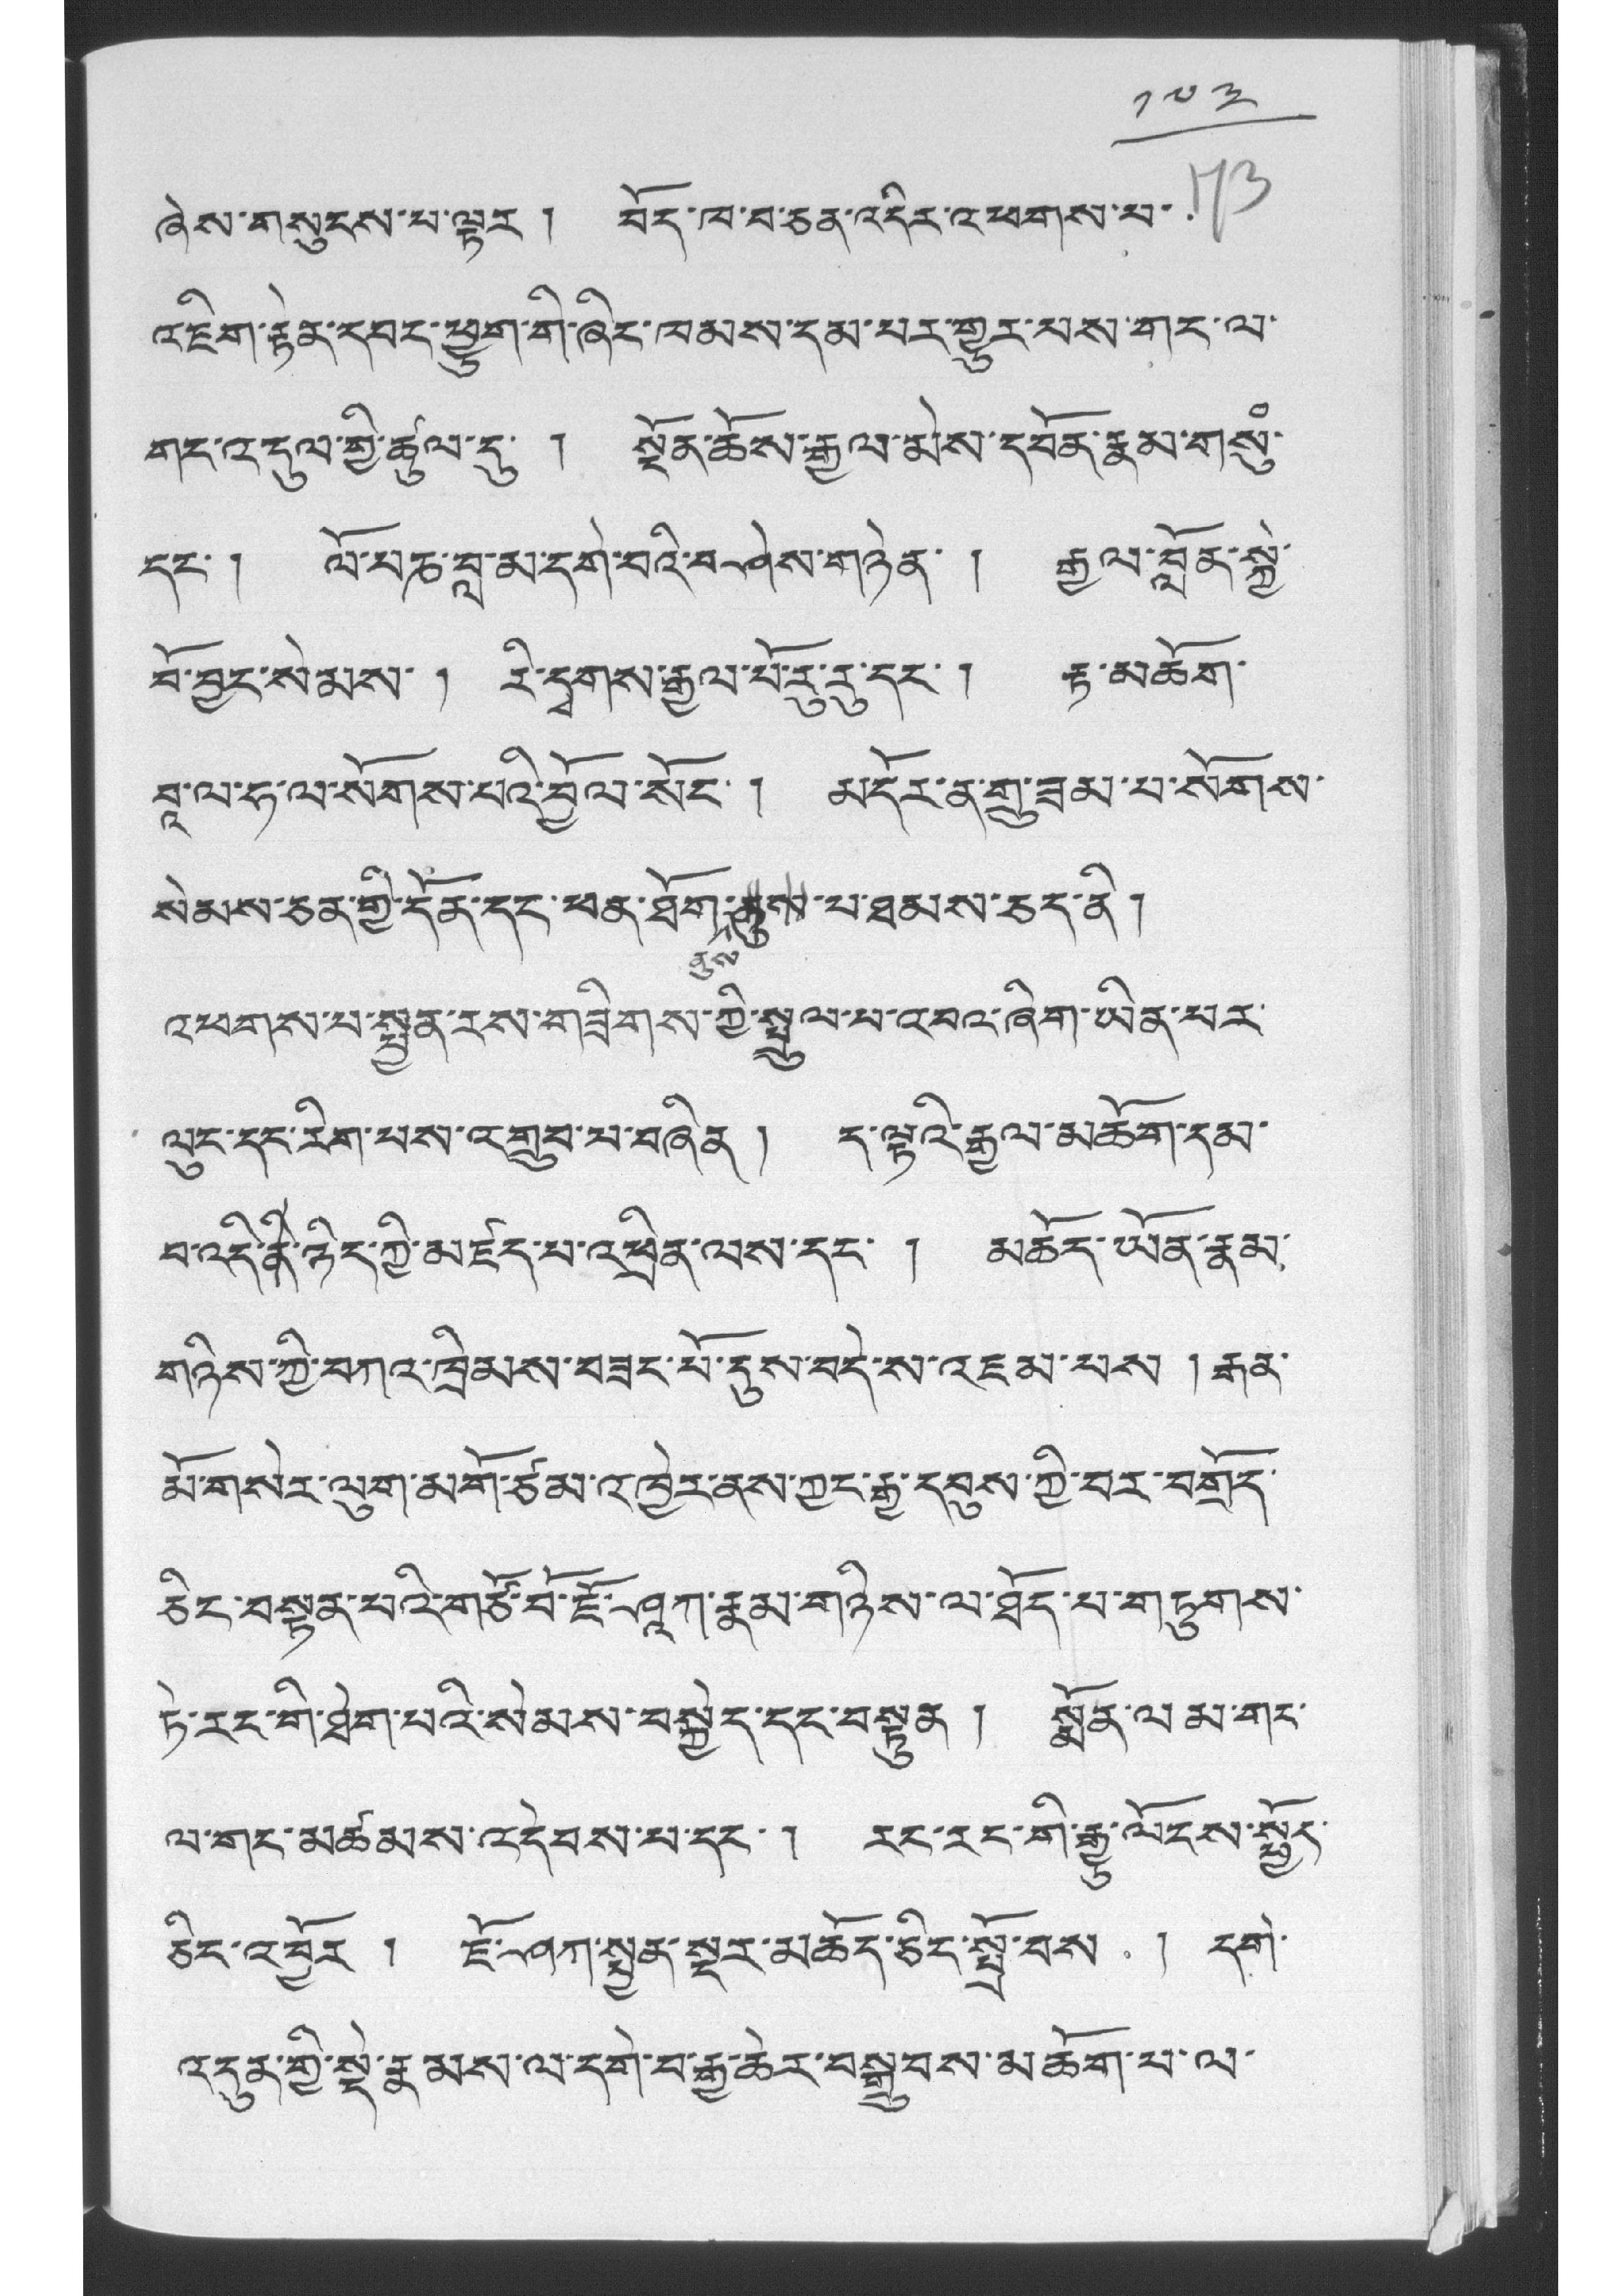༡༧༣
ཞེས་གསུངས་བ་ལྟར ། བོད་ཁ་བ་ཅན་འདིར་འཕགས་པ་
འཇིག་རྟེན་དབང་ཕྱུག་ག་ཞིེང་ཁམས་དམ་པར་གྱུར་པས་གང་ལ་
གང་འདུལ་གྱི་ཚུལ་དུ་ ། སྔོན་ཆོས་རྒྱལ་མེས་དབོན་རྣམ་གསུཾ་
དང་། ལོ་པཎ་བླ་མ་དགེ་བའི་བ་ཤེས་གཉེན་ ། རྒྱལ་བློན་སྐྱེ་
བོ་བྱང་སེམས་ ། རི་དྭགས་རྒྱལ་པོ་རུ་རུ་དང་། རྟ་མཆོག་
བཱ་ལ་ཧ་ལ་སོགས་པའི་བྱོལ་སོང་། མདོར་ན་གྲུ་ཟམ་པ་སོགས་
སེམས་ཅན་གྱི་དོན་དང་ཕན་ཐོག་ནུསནུས་པ་ཐམས་ཅར་ནི།
འཕགས་པ་སྤྱན་རས་གཟིགས་ཀྱི་སྤྲུལ་པ་འབའ་ཞིག་ཡིན་པར་
ལུང་དང་རིག་པས་འགྲུབ་པ་བཞིན། ད་ལྟའི་རྒྱལ་མཆོག་དམ་
བ་འདི་ནི་ཉིད་གྱི་མཛད་པ་འཕྲིན་ལས་དང་ ། མཆོར་ཡོན་རྣམ་
གཉིས་ཀྱི་བཀའ་ཁྲིམས་བཟང་པོ་དུས་བདེ་ས་འཇམ་པས ། རྒན་
མོ་གསར་ལུག་མགོ་ཙམ་འཁྱེར་ནས་ཀྱང་རྒྱ་དབུས་ཀྱི་བར་བགྲོད་
ཅིང་བསྟན་པའི་གཙོ་བོ་ཇོ་ཤཱཀ་རྣམ་གཉིས་ལ་ཐོད་པ་གཏུགས་
ཏེ་རང་གི་ཐེག་པའི་སེམས་བསྐྱེད་དང་བསྟུན ། སྨོན་ལམ་གང་
ལ་གང་མཚམས་འདེབས་པ་དང་། རང་རང་གི་རྒྱུ་ལོངས་སྤྱོད་
ཅིང་འབྱོར ། ཇོ་ཤཀ་སྤྱན་སྔར་མཆོད་ཅིང་སྤྲོ་བས ། དགེ་
འདུན་གྱི་སྡེ་རྣམས་ལ་དགེ་བ་རྒྱ་ཆེར་བསྒྲུབས་མཆོག་པ་ལ་
